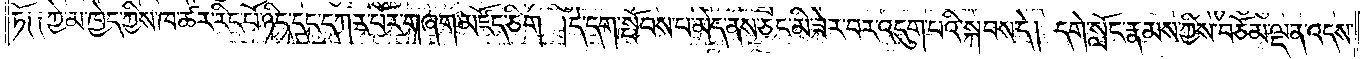ཏོ༑ ༑ཀྱེ་མ་ཁྱེད་ཀྱིས་ཁ་ཚར་རིང་པོ་ཉིད་དང་དཀར་པོར་གཞག་མཛོད་ཅིག །དེ་དག་སྤོབས་པ་མེད་ནས་ཅང་མི་ཟེར་བར་འདུག་པའི་སྐབས་དེ། དགེ་སློང་རྣམས་ཀྱིས་བཅོམ་ལྡན་འདས་
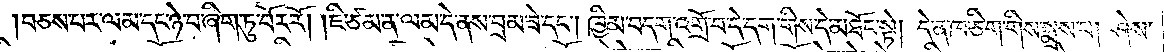བཅས་པར་ལམ་དང་ཉེ་བ་ཞིག་ཏུ་བོར་རོ། །ཇི་ཙམ་ན་ལམ་དེ་ནས་བྲམ་ཟེ་དང༌། ཁྱིམ་བདག་འགྲོ་བ་དེ་དག་གིས་དེ་མཐོང་སྟེ། དེ་ན་ཁ་ཅིག་གིས་སྨྲས་པ། ཤེས་
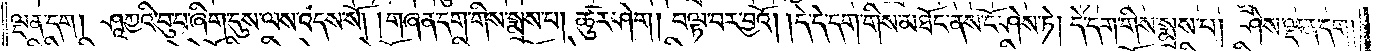ལྡན་དག། ཤཱཀྱའི་བུ་པ་ཞིག་དུས་ལས་འདས་སོ། །གཞན་དག་གིས་སྨྲས་པ། ཚུར་ཤེག། བལྟ་བར་བྱའོ། །དེ་དེ་དག་གིས་མཐོང་ནས་ངོ་ཤེས་ཏེ། དེ་དག་གིས་སྨྲས་པ། ཤེས་ལྡན་དག།
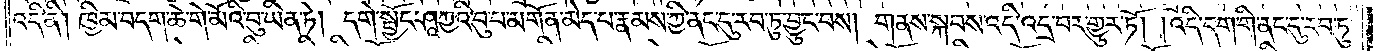འདི་ནི། ཁྱིམ་བདག་ཆེ་གེ་མོའི་བུ་ཡིན་ཏེ། དགེ་སྦྱོང་ཤཱཀྱའི་བུ་པ་མགོན་མེད་པ་རྣམས་ཀྱི་ནང་དུ་རབ་ཏུ་བྱུང་བས། གནས་སྐབས་འདི་འདྲ་བར་གྱུར་ཏོ། །འདི་དག་གི་ནང་དུ་རབ་ཏུ་
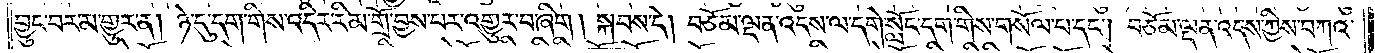བྱུང་བར་མ་གྱུར་ན། ཉེ་དུ་དག་གིས་འདིར་རིམ་གྲོ་བྱས་པར་འགྱུར་བ་ཞིག །སྐབས་དེ། བཅོམ་ལྡན་འདས་ལ་དགེ་སློང་དག་གིས་གསོལ་པ་དང༌། བཅོམ་ལྡན་འདས་ཀྱིས་བཀའ་
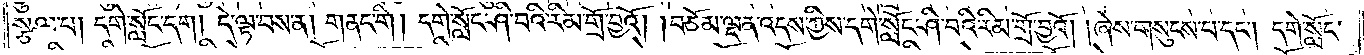སྩལ་པ། དགེ་སློང་དག། དེ་ལྟ་བས་ན། གནང་གི། དགེ་སློང་ཤི་བའི་རིམ་གྲོ་བྱའོ། །བཅོམ་ལྡན་འདས་ཀྱིས་དགེ་སློང་ཤི་བའི་རིམ་གྲོ་བྱའོ། །ཞེས་གསུངས་པ་དང༌། དགེ་སློང་
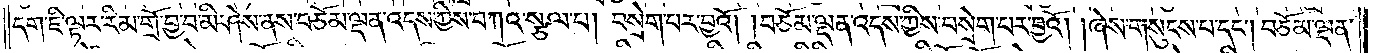དག་ཇི་ལྟར་རིམ་གྲོ་བྱ་བ་མི་ཤེས་ནས་བཅོམ་ལྡན་འདས་ཀྱིས་བཀའ་སྩལ་པ། བསྲེག་པར་བྱའོ། །བཅོམ་ལྡན་འདས་ཀྱིས་བསྲེག་པར་བྱའོ། །ཞེས་གསུངས་པ་དང༌། བཅོམ་ལྡན་
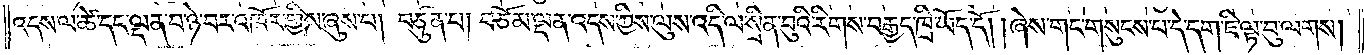འདས་ལ་ཚེ་དང་ལྡན་པ་ཉེ་བར་འཁོར་གྱིས་ཞུས་པ། བཙུན་པ། བཅོམ་ལྡན་འདས་ཀྱིས་ལུས་འདི་ལ་སྲིན་བུའི་རིགས་བརྒྱད་ཁྲི་ཡོད་དོ། །ཞེས་གང་གསུངས་པ་དེ་དག་ཇི་ལྟ་བུ་ལགས།
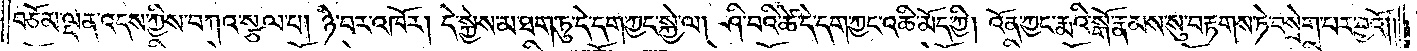བཅོམ་ལྡན་འདས་ཀྱིས་བཀའ་སྩལ་པ། ཉེ་བར་འཁོར། དེ་སྐྱེས་མ་ཐག་ཏུ་དེ་དག་ཀྱང་སྐྱེ་ལ། ཤི་བའི་ཚེ་དེ་དག་ཀྱང་འཆི་མོད་ཀྱི། འོན་ཀྱང་རྨའི་སྒོ་རྣམས་སུ་བརྟགས་ཏེ་བསྲེག་པར་བྱའོ༎
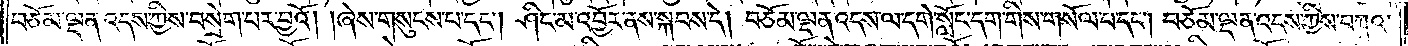བཅོམ་ལྡན་འདས་ཀྱིས་བསྲེག་པར་བྱའོ། །ཞེས་གསུངས་པ་དང༌། ཤིང་མ་འབྱོར་ནས་སྐབས་དེ། བཅོམ་ལྡན་འདས་ལ་དགེ་སློང་དག་གིས་གསོལ་པ་དང༌། བཅོམ་ལྡན་འདས་ཀྱིས་བཀའ་
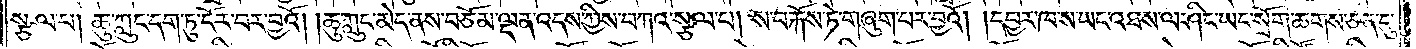སྩལ་པ། ཆུ་ཀླུང་དག་ཏུ་དོར་བར་བྱའོ། །ཆུ་ཀླུང་མེད་ནས་བཅོམ་ལྡན་འདས་ཀྱིས་བཀའ་སྩལ་པ། ས་བརྐོས་ཏེ་གཞུག་པར་བྱའོ། །དབྱར་ཁ་ས་ཡང་འཐས་ལ་ཤིང་ཡང་སྲོག་ཆགས་ཅན་དུ་
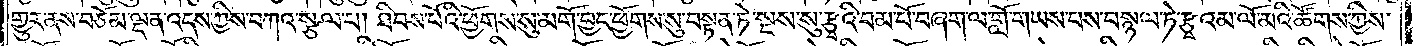གྱུར་ནས་བཅོམ་ལྡན་འདས་ཀྱིས་བཀའ་སྩལ་པ། ཐིབས་པོའི་ཕྱོགས་སུ་མགོ་བྱང་ཕྱོགས་སུ་བསྟན་ཏེ་སྔས་སུ་རྩྭའི་བམ་པོ་བཞག་ལ་གློ་གཡས་པས་བསྙལ་ཏེ་རྩྭའམ་ལོ་མའི་ཚོགས་ཀྱིས་
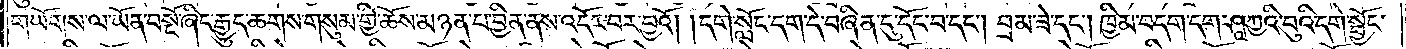གཡོགས་ལ་ཡོན་བསྔོ་ཞིང་རྒྱུད་ཆགས་གསུམ་གྱི་ཆོས་མཉན་པ་བྱིན་ནས་འདོར་བར་བྱའོ། །དགེ་སློང་དག་དེ་བཞིན་དུ་དོང་བ་དང༌། བྲམ་ཟེ་དང༌། ཁྱིམ་བདག་དག་ཤཱཀྱའི་བུའི་དགེ་སྦྱོང་
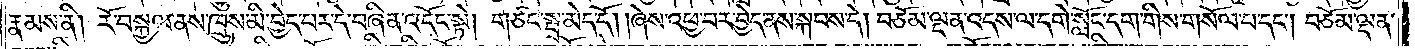རྣམས་ནི། རོ་བསྐྱལ་ནས་ཁྲུས་མི་བྱེད་པར་དེ་བཞིན་འདོང་སྟེ། གཙང་སྦྲ་མེད་དོ། །ཞེས་འཕྱ་བར་བྱེད་ནས་སྐབས་དེ། བཅོམ་ལྡན་འདས་ལ་དགེ་སློང་དག་གིས་གསོལ་པ་དང༌། བཅོམ་ལྡན་
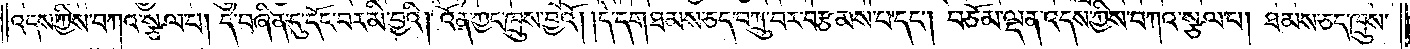འདས་ཀྱིས་བཀའ་སྩལ་པ། དེ་བཞིན་དུ་དོང་བར་མི་བྱའི། འོན་ཀྱང་ཁྲུས་བྱའོ། །དེ་དག་ཐམས་ཅད་བཀྲུ་བར་བརྩམས་པ་དང༌། བཅོམ་ལྡན་འདས་ཀྱིས་བཀའ་སྩལ་པ། ཐམས་ཅད་ཁྲུས་
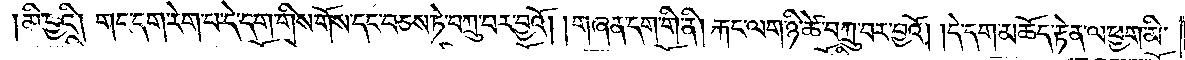མི་བྱའི། གང་དག་རེག་པ་དེ་དག་གིས་གོས་དང་བཅས་ཏེ་བཀྲུ་བར་བྱའོ། །གཞན་དག་གི་ནི། རྐང་ལག་ཉི་ཚེ་བཀྲུ་བར་བྱའོ། །དེ་དག་མཆོད་རྟེན་ལ་ཕྱག་མི་
